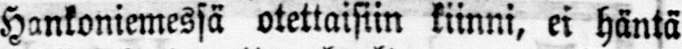Hankoniemessä otettaisiin kiinni, ei häntä
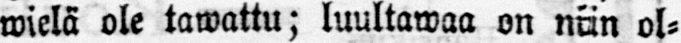wielä ole tawattu; luultawaa on niin ol-
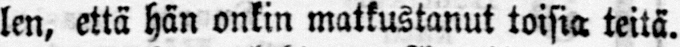len, että hän onkin matkustanut toisia teitä.
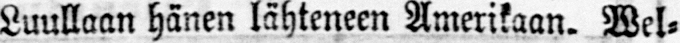Luullaan hänen lähteneen Amerikaan. Wel-
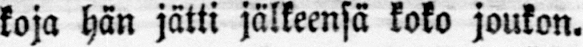koja hän jätti jälkeensä koko joukon.
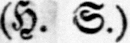(H. S.)
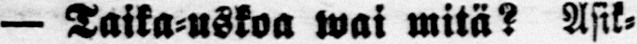— Taika-uskoa wai mitä? Asik-
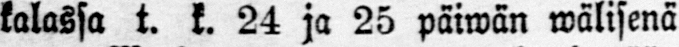kalassa t. k. 24 ja 25 päiwän wälisenä
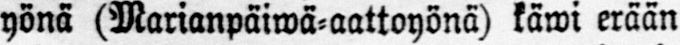yönä (Marianpäiwä-aattoyönä) käwi erään
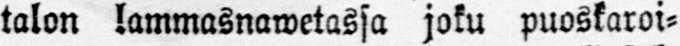talon lammasnawetassa joku puoskaroi-
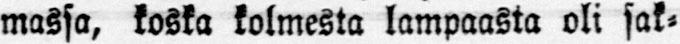massa, koska kolmesta lampaasta oli sak-
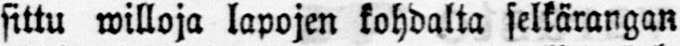sittu willoja lapojen kohdalta selkärangan
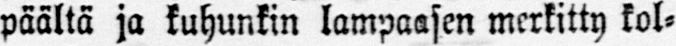päältä ja kuhunkin lampaasen merkitty kol-
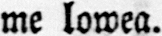me lowea.
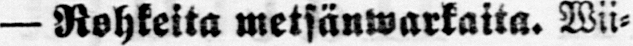— Rohkeita metsänwarkaita. Wii-
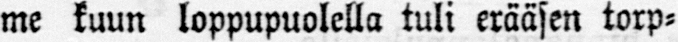me kuun loppupuolella tuli erääsen torp-
